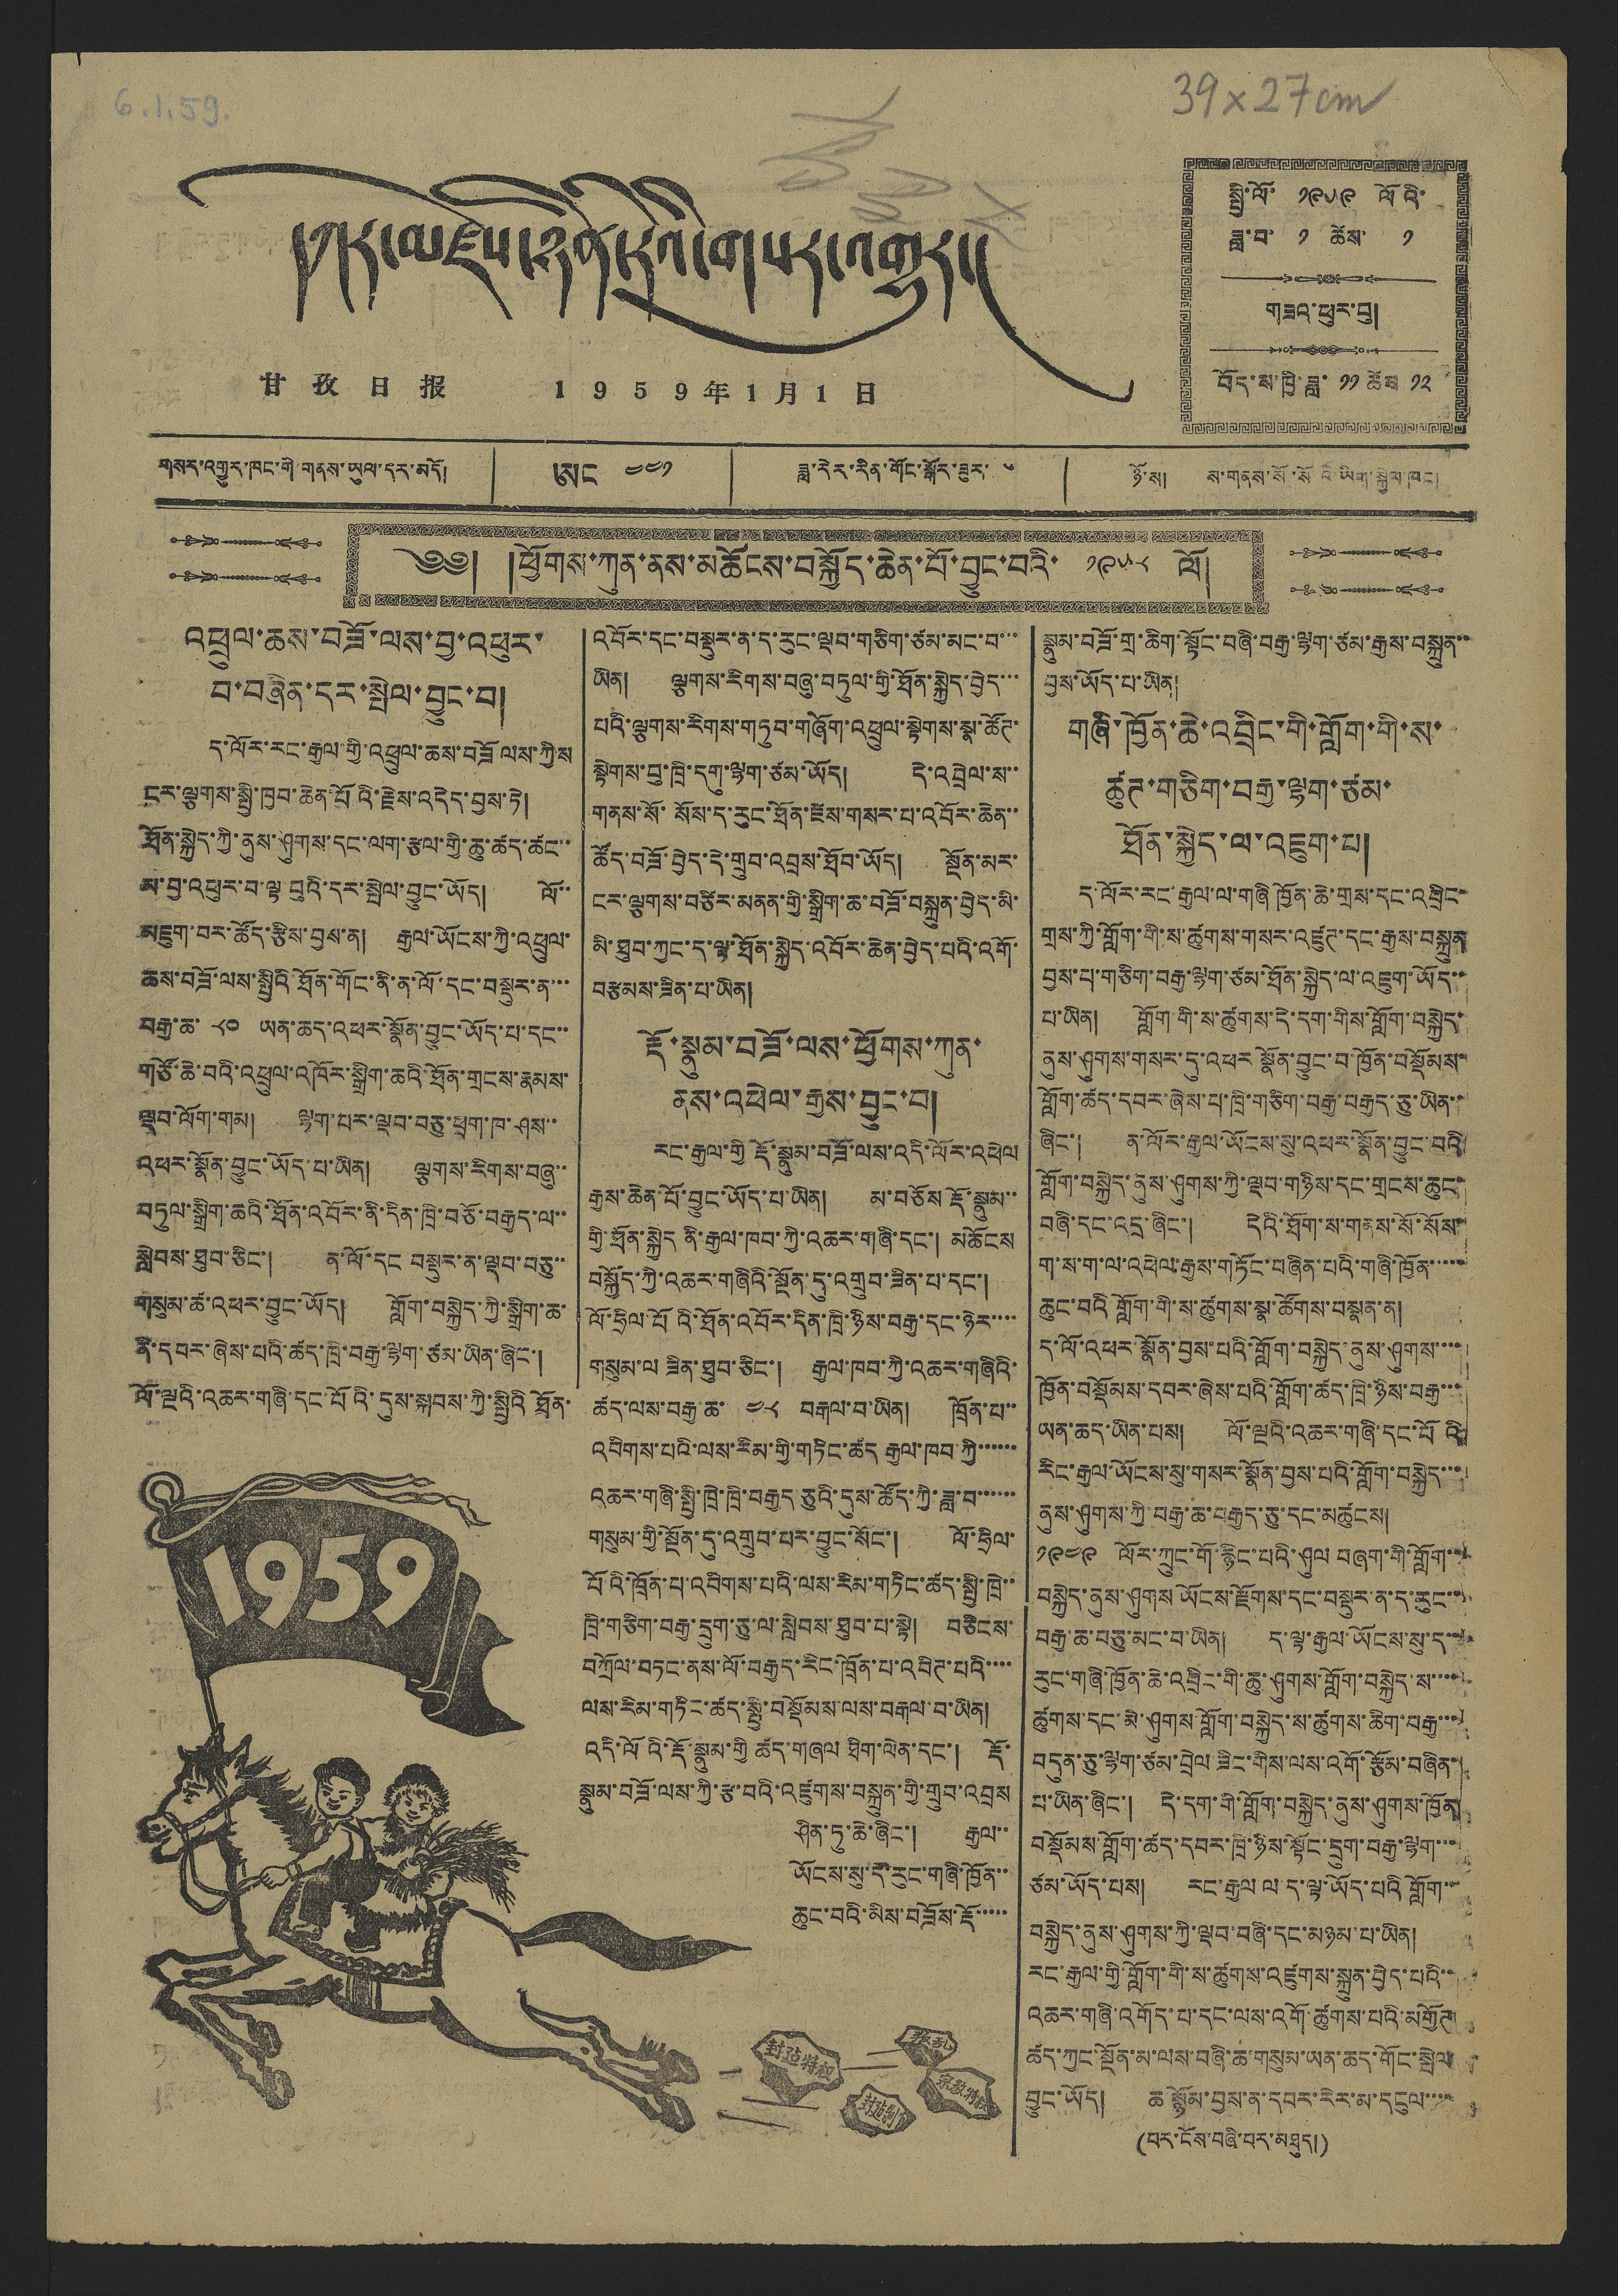དཀར་མཛེས་ཉིན་རེའི་གསར་འགྱུར།
甘 孜 日 报 1 9 5 9 年 1 月 1 日
གསར་འགྱུར་ཁང་གི་གནས་ཡུལ་དར་མདོ།
ཨང ༤༤༡
ཟླ་རེར་རིན་གོང་སྒོར་ཟུར་ ༦
ཉོ་ས། ས་གནས་སོ་སོའི་ཡིག་སྐྱེལ་ཁང་།
སྤྱི་ལོ་ ༡༩༥༩ ལོའི་
ཟླ་བ་ ༡ ཚེས་ ༡
གཟའ་ཕུར་བུ།
བོད་ས་ཁྱི་ཟླ་ ༡༡ ཚེས ༡༢
༄༅། །ཕྱོགས་ཀུན་ནས་མཆོངས་བསྐྱོད་ཆེན་པོ་བྱུང་བའི་ ༡༩༥༨ ལོ། །
འཕྲུལ་ཆས་བཟོ་ལས་བྱ་འཕུར་
བ་བཞིན་དར་སྤེལ་བྱུང་བ།
ད་ལོར་རང་རྒྱལ་གྱི་འཕྲུལ་ཆས་བཟོ ལས་ཀྱིས
ངར་ལྕགས་སྤྱི་ཁྱབ་ཆེན་པོའི་རྗེས་འདེད་བྱས་ཏེ།
ཐོན་སྐྱེད་ཀྱི་ནུས་ཤུགས་དང་ལག་རྩལ་གྱི་ཆུ་ཚད་ཚང་་
མ་བྱ་འཕུར་བ་ལྟ་བུའི་དར་སྤེལ་བྱུང་ཡོད། ལོ་་
མཇུག་བར་ཚོད་རྩིས་བྱས་ན། རྒྱལ་ཡོངས་ཀྱི་འཕྲུལ་
ཆས་བཟོ་ལས་སྤྱིའི་ཐོན་གོང་ནི་ན་ལོ་དང་བསྡུར་ན་་
བརྒྱ་ཆ་ ༨༠ ཡན་ཆད་འཕར་སྣོན་བྱུང་ཡོད་པ་དང་་
གཙོ་ཆེ་བའི་འཕྲུལ་འཁོར་སྒྲིག་ཆའི་ཐོན་གྲངས་རྣམས
ལྡབ་ལོག་གམ། ལྷག་པར་ལྡབ་བཅུ་ཕྲག་ཁ་ཤས་་
འཕར་སྣོན་བྱུང་ཡོད་པ་ཡིན། ལྕགས་རིགས་བཞུ་་
བཏུལ་སྒྲིག་ཆའི་ཐོན་འབོར་ནི་དིན་ཁྲི་བཅོ་བརྒྱད་ལ་་
སླེབས་ཐུབ་ཅིང་། ན་ལོ་དང བསྡུར་ན་ལྡབ་བཅུ་
གསུམ་ཚ་འཕར་བྱུང་ཡོད། གློག་བསྐྱེད་ཀྱི་སྒྲིག་ཆ་
ནི་དབར་ཞེས་པའི་ཚད་ཁྲི་བརྒྱ་ལྷག་ཙམ་ཡིན་ཞིང་།
ལོ་ལྔའི་འཆར་གཞི་དང་པོའི་དུས་སྐབས་ཀྱི་སྤྱིའི་ཐོན་
འབོར་དང་བསྡུར་ན་ད་རུང་ལྡབ་གཅིག་ཙམ་མང་བ་་་
ཡིན། ལྕགས་རིགས་བཞུ་བཏུལ་གྱི་ཐོན་སྐྱེད་བྱེད་་་
པའི་ལྕགས་རིགས་གཏུབ་གཞོག་འཕྲུལ་སྟེགས་སྣ་ཚོཊ་
སྟེགས་བུ་ཁྲི་དགུ་ལྷག་ཙམ་ཡོད། དེ་འབྲེལ་ས་་
གནས་སོ་སོས་ད་རུང་ཐོན་རྫས་གསར་པ་འབོར་ཆེན་་
ཚོད་བཟོ་བྱེད་དེ་གྲུབ་འབྲས་ཐོབ་ཡོད། སྔོན་མར་
ངར་ལྕགས་བཙིར་མནན་གྱི་སྒྲིག་ཆ་བཟོ་བསྐྲུན་བྱེད་མི་
མི་ཐུབ་ཀྱང་ད་ལྟ་ཐོན་སྐྱེད་འབོར་ཆེན་བྱེད་པའི་འགོ་
བརྩམས་ཟིན་པ་ཡིན།
རྡོ་སྣུམ་བཟོ་ལས་ཕྱོགས་ཀུན་
ནས་འཕེལ་རྒྱས་བྱུང་བ།
རང་རྒྱལ་གྱི་རྡོ་སྣུམ་བཟོ་ལས་འདི་ལོར་འཕེལ
རྒྱས་ཆེན་པོ་བྱུང་ཡོད་པ་ཡིན། མ་བཅོས རྡོ་སྣུམ་་
གྱི་ཐོན་སྐྱེད ནི་རྒྱལ་ཁབ་ཀྱི་འཆར་གཞི་དང་། མཆོངས
བསྐྱོད་ཀྱི་འཆར་གཞིའི་སྔོན་དུ་འགྲུབ་ཟིན་པ་དང་།
ལོ་ཧྲིལ་པོའི་ཐོན་འབོར་དིན་ཁྲི་ཉིས་བརྒྱ་དང་ཉེར་་་་
གསུམ་ལ ཟིན་ཐུབ་ཅིང་། རྒྱལ་ཁབ་ཀྱི་འཆར་གཞིའི་
ཚད་ལས་བརྒྱ་ཆ་ ༤༨ བརྒལ་བ་ཡིན། ཁྲོན་པ་་
འབིགས་པའི་ལས་རིམ་གྱི་གཏིང་ཚད རྒྱལ་ཁ་ཀྱི་་་་་་
འཆར་གཞི་སྤྱི་ཁྲེ་ཁྲི་བརྒྱད་ཅུའི་དུས་ཚོད་ཀྱི་ཟླ་བ་་་་་
གསུམ་གྱི་སྔོན་དུ་འགྲུབ་པར་བྱུང་སོང་། ལོ་ཧྲིལ་
པོའི་ཁྲོན་པ་འབིགས་པའི་ལས་རིམ་གཏིང་ཚད་སྤྱི་ཁྲེ་
ཁྲི་གཅིག་བརྒྱ་དྲུག་ཅུ་ལ་སླེབས་ཐུབ་པ་སྟེ། བཅིངས་
བཀྲོལ་བཏང་ནས་ལོ་བརྒྱད་རིང་ཁྲོན་པ་འབིཊ་པའི་་་་
ལས་རིམ་གཏིང་ཚད་སྤྱི་བསྡོམས་ལས་བརྒལ་བ་ཡིན།
འདི་ལོའི་རྡོ་སྣུམ་གྱི ཚད་གཞལ ཐིག་ལེན་དང་། རྡོ་
སྣུམ་བཟོ་ལས་ཀྱི་རྩ་བའི་འཛུགས་བསྐྲུན་གྱི་གྲུབ་འབྲས
ཤིན་ཏུ་ཆེ་ཞིང་། རྒྱལ་
ཡོངས་སུ་དེ་རུང་གཞི་ཁྱོན་་་
ཆུང་བའི་མིས་བཟོས་རྡོ་་་་་
སྣུམ་བཟོ་གྲ་ཆིག་སྟོང་བཞི་བརྒྱ་ལྷག་ཙམརྒྱས་བསྐྲུན་་
བྱས་ཡོད་པ་ཡིན།
གཞི་ཁྱོན་ཆེ་འབྲིང་གི་གློག་གི་ས་
ཚུཊ་གཅིག་བརྒྱ་ལྷག་ཙམ་
ཐོན་སྐྱེད་ལ་འཇུག་པ།
ད་ལོར་རང་རྒྱལ་ལ་གཞི་ཁྱོན་ཆེ་གྲས་དང་འབྲིང་
གྲས་ཀྱི་གློག་གི་ས་ཚུགས་གསར་འཛུཊ་དང་རྒྱས་བསྐྲུན
བྱས་པ་གཅིག་བརྒྱ་ལྷག་ཙམ་ཐོན་སྐྱེད་ལ་འཇུག་ཡོད་་
པ་ཡིན། གློག་གི་ས་ཚུགས་དེ་དག་གིས་གློག་བསྐྱེད་
ནུས་ཤུགས་གསར་དུ་འཕར སྣོན་བྱུང་བ་ཁྱོན་བསྡོམས་
གློག་ཚད་དབར་ཞེས་པ་ཁྲི་གཅིག་བརྒྱ་བརྒྱད་ཅུ་ཡིན་་
ཞིང་། ན་ལོར་རྒྱལ་ཡོངས་སུ་འཕར་སྣོན་བྱུང་བའི་
གློག་བསྐྱེད་ནུས་ཤུགས་ཀྱི་ལྡབ་གཉིས་དང་གྲངས་ཆུང་
བཞི་དང་འདྲ་ཞིང་། དེའི་ཐོག་ས་གནས་སོ་སོས་
ག་ས་ག་ལ་འཕེལ་རྒྱས་གཏོང་བཞིན་པའི་གཞི་ཁྱོན་་་་
ཆུང་བའི་གློག་གི་ས་ཚུགས་སྣ་ཚོགས་བསྣན་ན།
ད་ལོ་འཕར་སྣོན་བྱས་པའི་གློག་བསྐྱེད་ནུས་ཤུགས་་་་
ཁྱོན་བསྡོམས་དབར་ཞེས་པའི་གློག་ཚད་ཁྲི་ཉིས་བརྒྱ་་་
ཡན་ཆད་ཡིན་པས། ལོ་ལྔའི་འཆར་གཞི་དང་པོའི་
རིང་རྒྱལ་ཡོངས་སུ་གསར་སྣོན་བྱས་པའི་གློག་བསྐྱེད་་་
ནུས་ཤུགས་ཀྱི་བརྒྱ་ཆ་བརྒྱད་ཅུ་དང་མཚུངས།
༡༩༤༩ ལོར་ཀྲུང་གོ་རྙིང་པའི་ཤུལ བཞག་གི་གློག་་་
བསྐྱེད་ནུས་ཤུགས ཡོངས་རྫོགས་དང་བསྡུར་ན་ད་རུང་་་
བརྒྱ་ཆ་བཅུ་མང་བ་ཡིན། ད་ལྟ་རྒྱལ་ཡོངས་སུ་ད་་
རུང་གཞི་ཁྱོན་ཆེ་འབྲིང་གི་ཆུ་ཤུགས་གློག་བསྐྱེད་ས་་་་་
ཚུགས་དང་མེ་ཤུགས་གློག་བསྐྱེད་ས་ཚུགས་ཆིག་བརྒྱ་་་་
བདུན་ཅུ་ལྷག་ཙམ་བྲེལ་ཟིང་གིས་ལས་འགོ་རྩོམ་བཞིན་
པ་ཡིན་ཞིང་། དེ་དག་གི་གློག་བསྐྱེད་ནུས་ཤུགས་ཁྱོན
བསྡོམས་གློག་ཚད་དབར་ཁྲི་ཉིས་སྟོང་དྲུག་བརྒྱ་ལྷག་་་
ཙམ་ཡོད་པས། རང་རྒྱལ་ལ་ད་ལྟ་ཡོད་པའི གློག་་
བསྐྱེད་ནུས་ཤུགས་ཀྱི་ལྡབ་བཞི་དང་མཉམ་པ་ཡིན།
རང་རྒྱལ་གྱི་གློག་གི་ས་ཚུགས་འཛུགས་སྐྲུན་བྱེད་པའི་་
འཆར་གཞི་འགོད་པ་དང་ལས་འགོ་ཚུགས་པའི་མགྱོཊ་
ཚད་ཀྱང་སྔོན་མ་ལས་བཞི་ཆ་གསུམ་ཡན་ཆད་གོང་སྤེལ
བྱུང་ཡོད། ཆ་སྙོམ་བྱས་ན་དབར་རེར་མ་དངུལ་་་་
(པར་ངོས་བཞི་པར་མཐུད།)
1959
封⿺廴占特权
叛乱
封⿺廴占剥削
宗教特权
